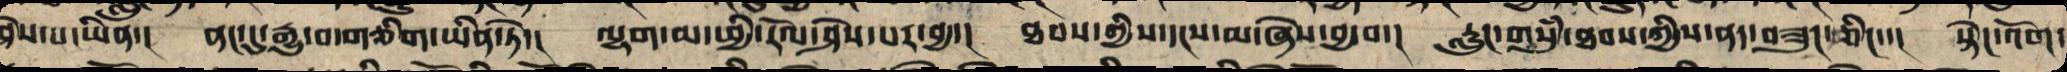ཤེས་པ་ཡིན་། ནང་དུ་རྒྱུ་བ་གཅིག་ཡིན་ཏེ་། ལྷག་མ་ཕྱི་རོལ་ཤེས་པར་བྱ་། ཐབས་ཀྱི་དངས་མ་ཞེས་བྱ་བ་། རླུང་གསུཾ་ཐབས་ཀྱིས་ནད་བཟུད་ཅིང་་། སྟེང་འོག་
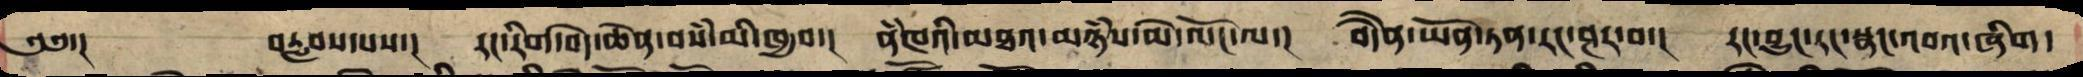༄༅་།        བརླབས་པས་། རང་རིག་བདེ་ཆེན་བསཾ་མི་ཁྱབ་། ནཾཁའི་མཐའ་མཉཾས་མེ་ལོང་ལ་། བདཻན་ཡོན་ཏན་རང་ཤར་བ་། རང་བྱུང་རང་སྣང་འབའ་ཞིག་
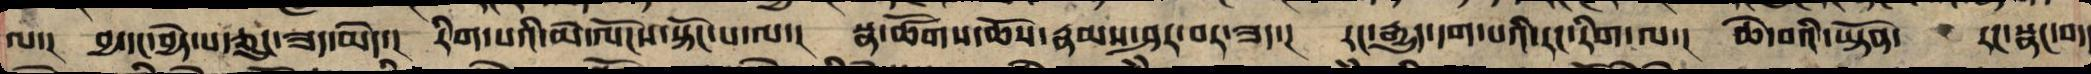ལ་། བྱ་དང་བྱེད་པ་ཅུང་ཟད་མེད་། རིག་པའི་མེ་ལོངས་སྟོང་པ་ལ་། སྣ་ཚོགས་ཆོས་རྣམས་ཤར་བར་ཟད་། རང་རྒྱུད་དག་པའི་རང་རིག་ལ་། ཆེ་བའི་ཡྟོན་ རང་སྣང་བད
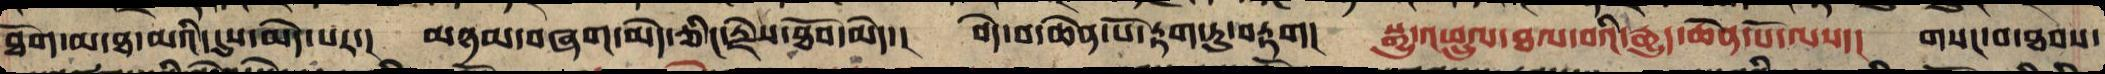ཐོག་མ་ཐ་མའི་དུས་མེད་པར་། མཉམ་བཞག་མེད་ཅིང་རྗེས་ཐོབ་མེད་། བདེ་བ་ཆེན་པོར་རྟག་ཏུ་བརྟག། སྒྱུ་འཕྲུལ་ཐལ་བའི་རྒྱུད་ཆེན་པོ་ལས་། གསང་བ་ཐབས་
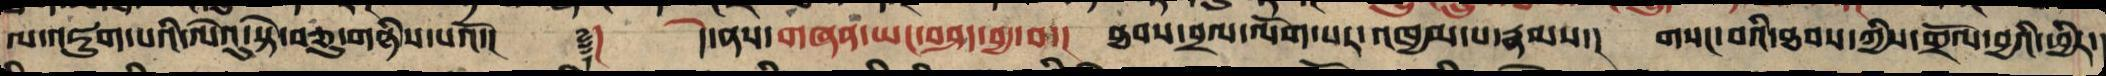ལ་འཇུག་པའི་ལེའུ་སྟེ་བཅུ་གཉིས་པའོ་།།       ༈།    དེ་ནས་གཞན་ཡང་བཤད་བྱ་བ་། ཐབས་བྲལ་ལོག་པར་འཁྱམ་པ་རྣམས་། གསང་བའི་ཐབས་ཀྱིས་གྲོལ་བྱའི་ཕྱིར་
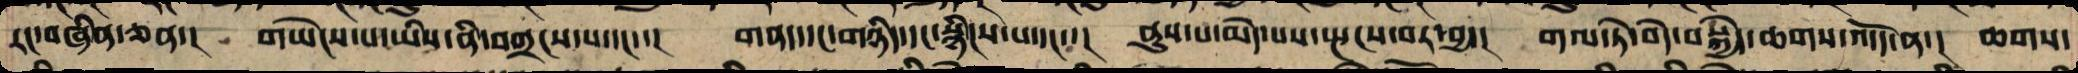རང་བཞིན་ཅན་། གཡེངས་པ་ཡིས་ནི་བགྲངས་པ་དང་་། གནད་དང་གཉིད་དང་སྙིངས་པ་དང་་། ནུས་པ་མེད་པས་སྤངས་བར་བྱ་། གལ་ཏེ་བདེ་བསྐྱེད་ཆགས་འདོད་ན་། ཆགས་
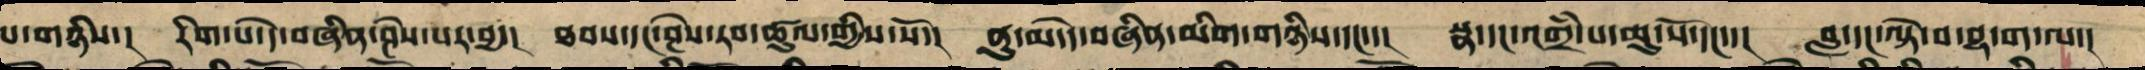པ་གཉིས་། རིག་པ་དེ་བཞིན་ཤེས་པར་བྱ་། ཐབས་དང་ཤེས་རབ་ཚུལ་གྱིས་སོ་། ནུ་མ་དེ་བཞིན་མིག་གཉིས་དང་་། སྣ་དང་འགྲཾ་པ་ཆུ་སོ་དང་་།  བླ་དང་ལྟེ་བ་བྷ་ག་ལ་།
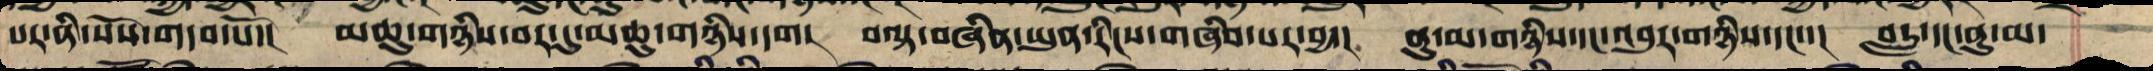པར་ནི་སོས་གདབ་པོ་། མཆུ་གཉིས་བར་དུ་མཆུ་གཉིས་དག། བལྟ་བཞིན་ཡུན་རིང་གཞིབ་པར་བྱ་། ནུ་མ་གཉིས་དང་འབུར་གཉིས་དང་་། བརླ་དང་ནུ་མ་
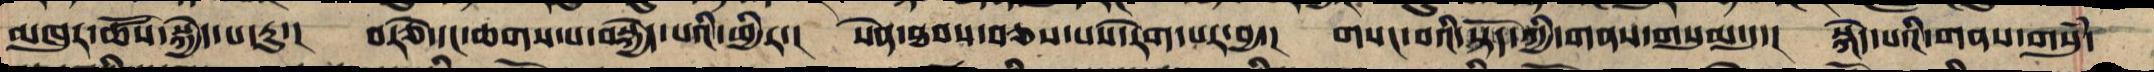མཁུར་ཚོས་སྐྱེད་པ་རུ་། བརྩེ་དང་ཆགས་པ་བསྐྱེད་པའི་ཕྱིར་། སེན་ཐབས་བཅས་པས་རེག་པར་བྱ་། གསང་བའི་སྟོད་ཀྱི་གནས་གསུམ་དུ་། སྐེད་པའི་གནས་གསུཾ་
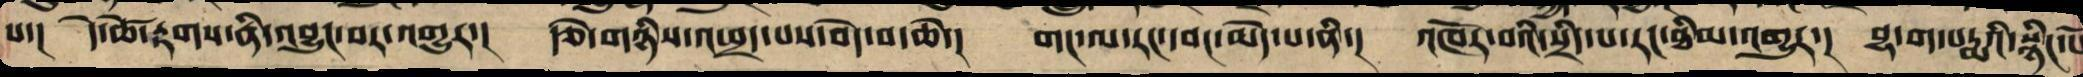པ་། དེ་ཚེ་རྟགས་ནི་འབྱུང་བར་འགྱུར་། རྩེ་གཉིས་འཕྲད་པས་བདེ་བ་ཆེ་། གང་ལ་རང་དབང་མེད་པ་ནི་། འཁོར་བའི་སྲིད་པ་རང་ཐིམ་འགྱུར་། བྷ་ག་པདྨའི་སྙིང་པོ
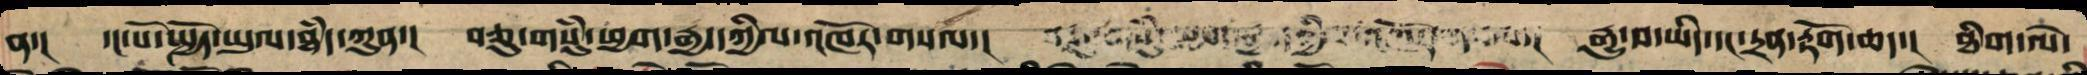ན། །དང་པོ་སྤྱོད་ཡུལ་ཐམས་ཅད་ཀུན་། བཅུ་གསུམ་ཕྱག་རྒྱའི་དཀྱིལ་འཁོར་གསལ། རྒྱུ་བ་ཡིད་དང་དྲན་རྟོག་ཆད། ཐིག་ལེ་
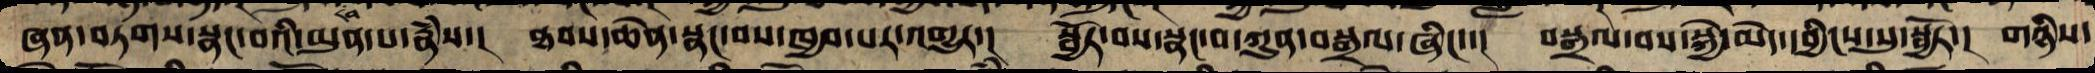ཞན་བཏགས་སྣང་བའི་མུན་པ་རྣཾས། ཐབས་ཆེན་སྣང་བས་ཁྱབ་པར་འགྱུར་། སྦྱོར་བས་སྣང་བ་ཀུན་བསྒྲལ་ཞིང་་། བསྒྲལ་བས་སྐྱེ་མེད་དབྱིངས་སུ་སྦྱོར་། གཉིས་
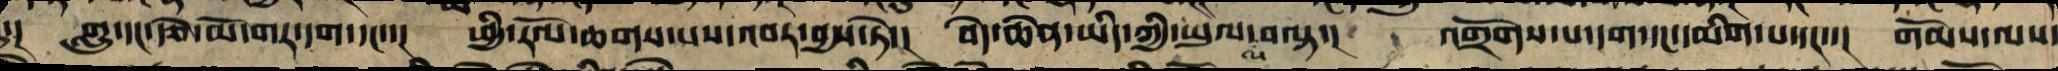དུ། གླུ་དང་རྩེ་མོ་གར་དག་དང་་། ཕྱི་རོལ་ཆགས་པས་འབར་བྱས་ཏེ་། བདེ་ཆེན་ཡིད་ཀྱི་ཡུལ་ལ་བལྟ་། འགྲོགས་པ་དག་དང་དམིགས་པ་དང་་། གོམས་ལས་
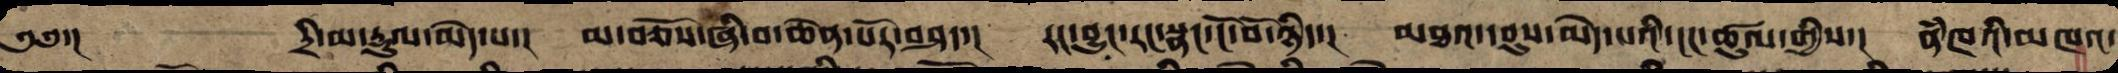༄༅་།       དྲི་མ་རྡུལ་མེད་པ་། མ་བཅོས་ཞི་བ་ཆེན་པོར་བཤད། རང་བྱུང་རང་སྣང་ངོ་བོ་ཉིད། མཐའ་དབུས་མེད་པའི་ངང་ཚུལ་གྱིས་། ནཾཁའི་མཁའ་
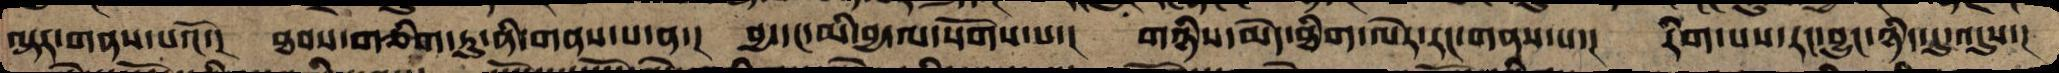ལྟར་གནས་པའོ་། ཐབས་གཅིག་ཏུ་ནི་གནས་པ་ན་། བྱ་དང་མི་བྱ་ལ་སོགས་པ་། གཉིས་མེད་ཐིག་ལེར་རང་གནས་པ་། རིག་པས་རང་བྱུང་ཉིད་དུ་འདུས་།
